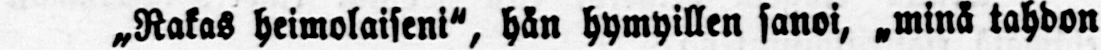˶Rakas heimolaiseni", hän hymyillen sanoi, ˶minä tahdon
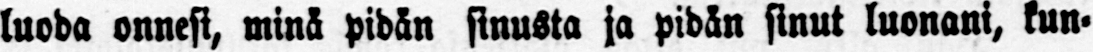luoda onnesi, minä pidän sinusta ja pidän sinut luonani, kun-
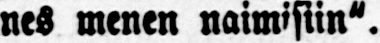nes menen naimisiin".
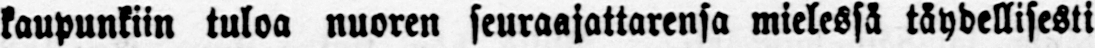kaupunkiin tuloa nuoren seuraajattarensa mielessä täydellisesti
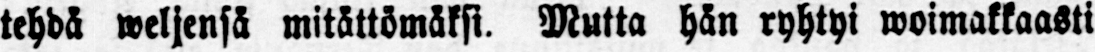tehdä weljensä mitättömäksi. Mutta hän ryhtyi woimakkaasti
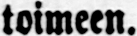toimeen.
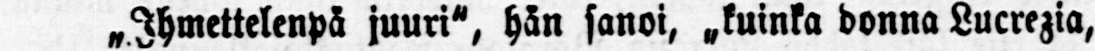˷Ihmettelenpä juuri", hän sanoi, ˷kuinka donna Lucrezia,
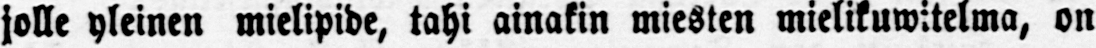jolle yleinen mielipide, tahi ainakin miesten mielikuvitelma, on
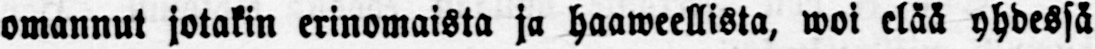omannut jotakin erinomaista ja haaweellista, woi elää yhdessä
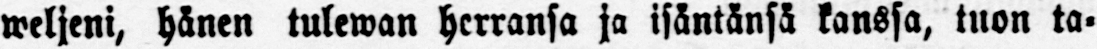weljeni, hänen tulewan herransa ja isäntänsä kanssa, tuon ta-
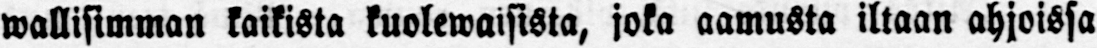wallisimman kaikista kuolewaisista, joka aamusta iltaan ahjoissa
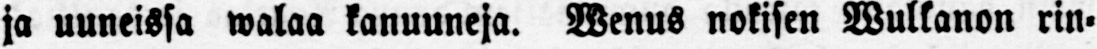ja uuneissa walaa kanuuneja. Wenus nokisen Wulkanon rin-
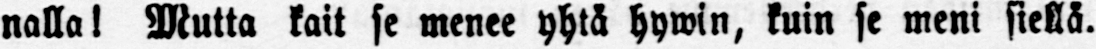nalla! Mutta kait se menee yhtä hywin, kuin se meni siellä.
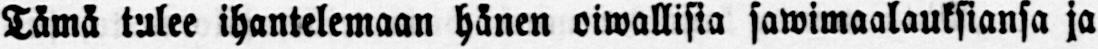Tämä tulee ihantelemaan hänen oiwallista sawimaalauksiansa ja
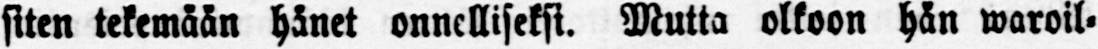siten tekemään hänet onnelliseksi. Mutta olkoon hän waroil-
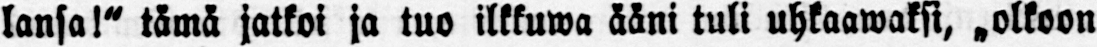lansa!" tämä jatkoi ja tuo ilkkuwa ääni tuli uhkaawaksi, ˷olkoon
